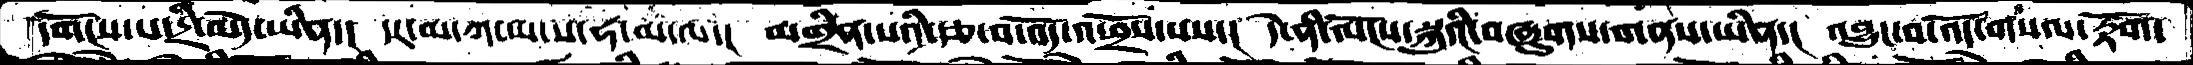དགོངས་པ་དྲི་མེད་ཡིན་།  དར་མ་ཀ་ཡ་ས་ཧ་མ་ལ་།  མགྲིན་པའི་རྩ་བ་འོད་འཕྲོས་པས་།  དེ་ནི་ལོངས་སྐུའི་བཞུགས་གནས་ཡིན་།  འབྱུང་བ་འོད་གསལ་རྟོག་
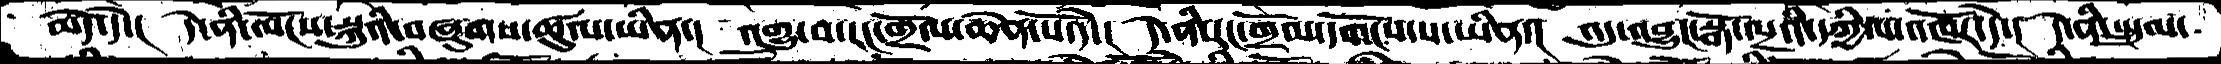མེད་དེ་།  དེ་ནི་ལོངས་སྐུའི་བཞུགས་ཚུལ་ཡིན་།  འགྱུ་བ་རང་གྲོལ་ཆེན་པོ་དེ་།  དེ་ནི་རང་གྲོལ་དགོངས་པ་ཡིན་།  འདུ་འབྱུང་སྒོ་ལྔའི་དཀྱིལ་འཁོར་དེ་།  དེ་ནི་སྤྲུལ་
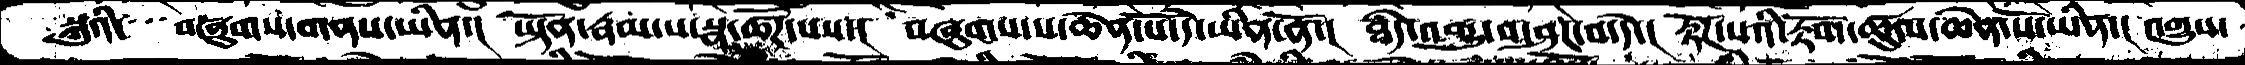སྐུའི་  བཞུགས་གནས་ཡིན་།  ཡྟོན་རྣམ་པ་སྣ་ཚོཌ་པས་།  བཞུགས་པ་ཆེན་པོ་དེ་ཡིན་ནོ་།  ཐཾད་འགྱུ་བ་ཤར་བ་དེ་།  རྟོཌ་པའི་རྟོག་ཚུལ་ཆེན་པོ་ཡིན་།  འགྱུས་
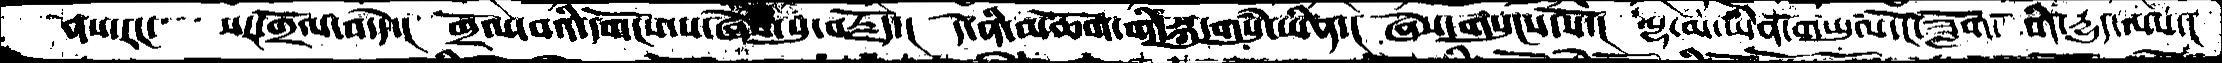ནས་རང་   སར་གྲོལ་བ་དེ་།  གྲོལ་བའི་དགོངས་པ་ཞེས་སུ་བརྗོད་།  དེ་ནི་མཆོག་གི་སྐུ་གསུཾ་ཡིན་།  ཞེས་གསུངས་སོ་།  ལྷ་མ་ཡིན་གཡུལ་ངོ་ཟློག་ གི་རྒྱུད་ལས་།
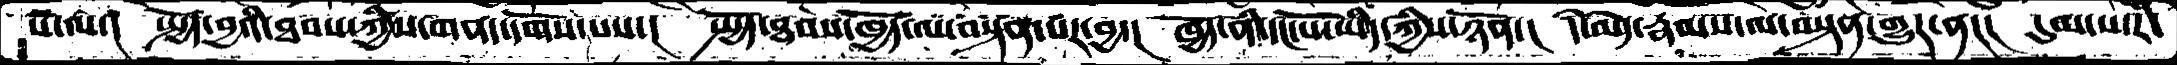པོ་ལ་།  སྤྱོད་བྱའི་ཐབས་ཀྱིས་གནད་དགོས་པས་།  སྤྱོད་ཐབས་ཁྱོད་ལ་བསྟན་པར་བྱ་།  ཁྱོད་ནི་དང་པོ་ཡིད་ཀྱིས་ཉོན་།  དཾ་མེད་རྣམས་ལ་བསྟན་གྱུར་ན།།།  དུམ་ས་རི
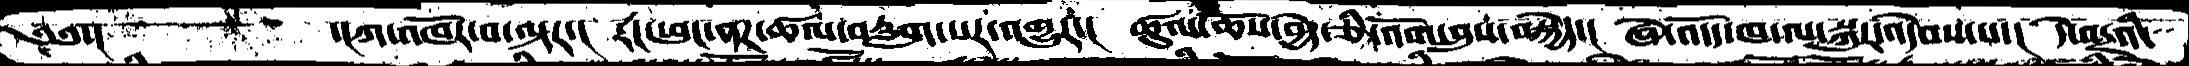༄༅་།           ་།ཀ་འཁོར་བ་ལྟར་།  རང་ཕུང་ནཌ་ཚལ་བརླག་པར་འགྱུར་།   ཚུལ་ཆོས་བྱེད་ཅི་འོག་བྲུས་བསྐྱེད་།  ཁེ་འདོད་ཁ་ལ་སྐུར་འདེབས་པ་།  དེ་འདྲའི་
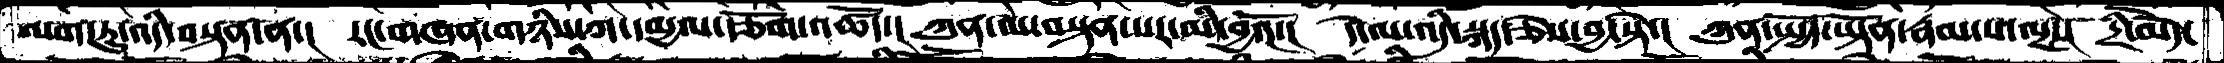ལག་ཏུ་་འདི་བསྟན་ན་།  རང་གཞན་གཉིས་ཀ་དམྱལ་རྩོག་འཚོད།   ཀུན་ལ་བསྟན་པར་མི་བྱའོ་།  དེ་ལ་འདི་སྐད་ཅེས་བྱ་སྟེ་།  ཀུན་སྤྱོད་ཡྟོན་རྣམ་པ་ལྔ་།  དྲི་མེད་
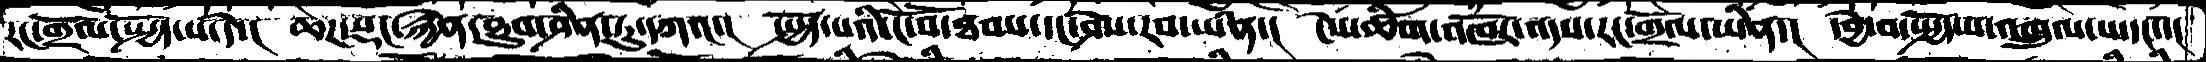རང་གྲོལ་སྤྱོད་པ་དེ་།  ཆཌ་སྡང་རྐྱེན་ཐུབ་ཤིན་ཏུ་དཀའ་།  སྤྱོད་པའི་ངོ་བོ་ཐབས་དང་ཤེས་རབ་ཡིན་།  ངེས་ཚིག་འཁོར་འདས་རང་གྲོལ་ཡིན་།  དབྱེ་བ་སྤྱོད་པ་འཁྲུལ་པ་དང་་།
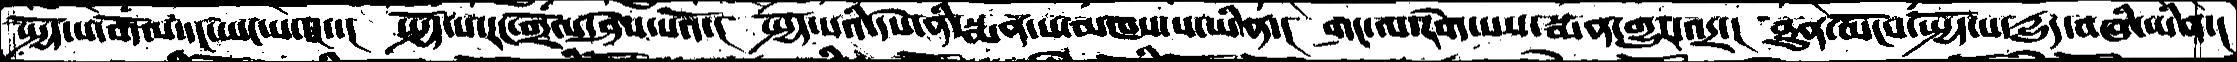སྤྱོད་པ་གོལ་དང་ཡང་པ་དང་་།  སྤྱོད་པ་རང་གྲོལ་ཤེས་པའོ་།  སྤྱོད་པའི་དཔེ་ནི་སྨན་པ་མཁས་པ་ཡིན་།  གང་ལ་རེག་པས་སྨན་གྱུར་འདྲ་།  ཐུན་མོངས་སྤྱོད་པ་རྒྱུད་བཞི་ཡིན་།
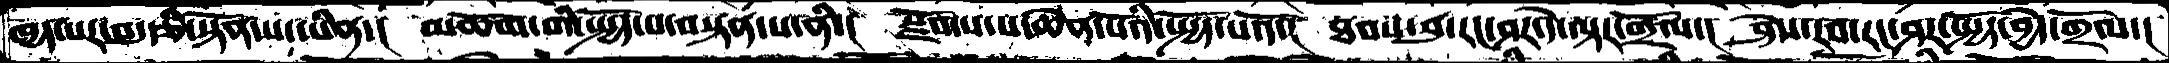ཁྱད་པར་བདུད་རྩི་སྟོན་པ་ཡིན་།  མཆོག་གི་སྤྱོད་པ་བསྟན་པ་ནི་།  སྫོགས་པ་ཆེན་པོའི་སྤྱོད་པའོ་།  ཐབས་སུ་རང་ཤར་དེ་ལྟར་གྲོལ་།  ཤེས་རབ་རང་ཤར་སྤྱོད་བྱེད་གྲོལ་།
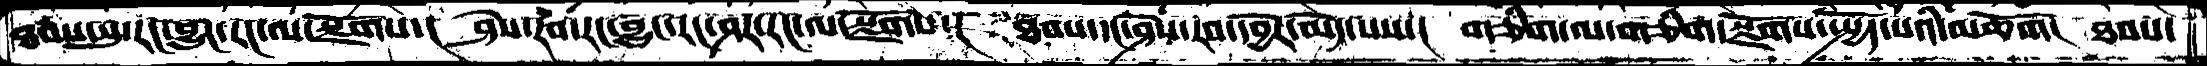ཐབས་སུ་རང་བྱུང་རང་ལ་སྫོགས་།  ཤེས་རབ་རང་བྱུང་རང་ཤར་རང་ལ་སྫོགས་།  ཐབས་དང་ཤེས་རབ་དབྱེར་མེད་པས་།  གཅིག་ལ་གཅིག་སྫོགས་སྤྱོད་པའི་མཆོག།  ཐབས་
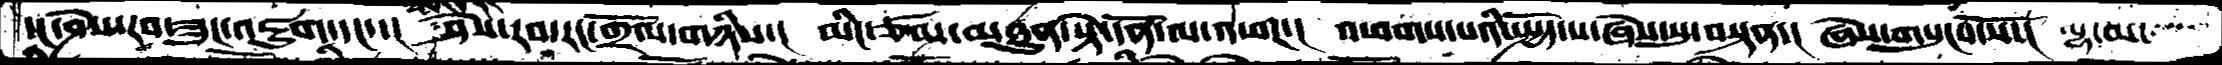དང་ཤེས་རབ་ཟུང་འཇུག་དང་་།  ཤེས་རབ་རང་གྲོལ་གཉིས་།  མིང་ཙམ་མཐུན་སྟེ་དོན་ལ་འཕཌ་།  འཕགས་པའི་སྤྱོད་པ་ཞེས་སུ་བསྟན་། ཞེས་གསུངས་སོ་།  ལྷ་མ་
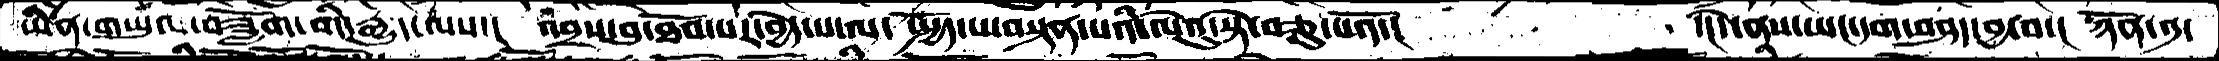ཡིན་གཡུལ་བཟློག་གི་རྒྱུད་ལས་།  འབྲས་བུ་ཐོབ་པར་བྱེད་པ་ལ་ སྤྱོད་པ་བསྟན་པའི་ལེའུ་སྟེ་བཅུ་པའོ་།       ་།དེ་ནས་ཡང་དག་བཤད་བྱ་བ་།  ཉོན་༡་
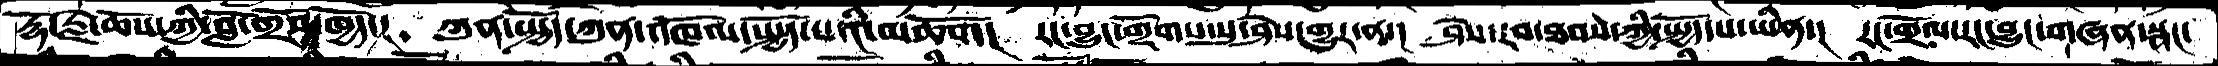རྡོ་རྗེ་ཆོས་ཀྱི་བློ་གྲོས་ཁྱོད་།  ཀུན་སྤྱོད་ཀུན་འཁོལ་སྤྱོད་པའི་མཆོག།  རང་བྱུང་གྲོགས་སུ་ཤེས་གྱུར་ན་།  ཤེས་རབ་ཐབས་ཀྱི་སྤྱོད་པ་ཡིན་།  རང་གྲོལ་རང་བྱུང་གཞན་སྣང་
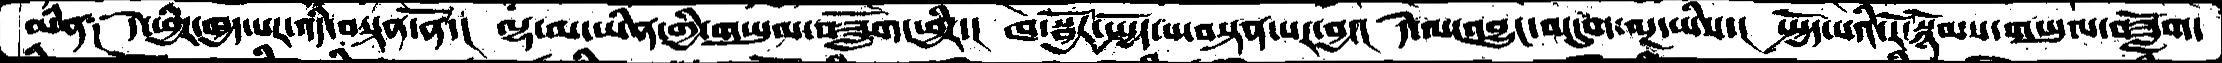མིན༑  དེ་ཕྱིར་ཁྱད་པར་འདི་བསྟན་ནོ་།  ལྷ་མ་ཡིན་གྱི་གཡུལ་བཟློག་ཕྱིར་།  ཁ་སྦྱོར་སྤྱོད་པ་བསྟན་པར་བྱ་།  དེ་ལ་འབྱུང་བ་དུག་ལྔ་ཡིས་།  སྤྱོད་པའི་རོ་སྙོམས་གཡུལ་བཟློག་
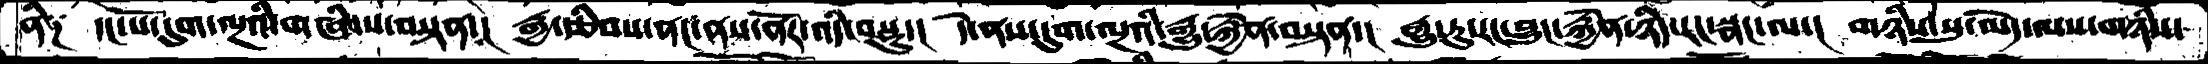ནི༑  དང་པོ་དུག་ལྔའི་གཞི་ས་བསྟན་།  རྒྱ་རྩིབས་ནང་ནས་ནོར་འདི་བསྡུ་།   དེ་ནས་དུག་ལྔའི་རྒྱུ་རྐྱེན་བསྟན་།  རྒྱུ་རུ་རང་བྱུང་རྐྱེན་ཉིད་རང་སྣང་ལས་།  གཉིས་སུ་མེད་ལས་གཉིས་
